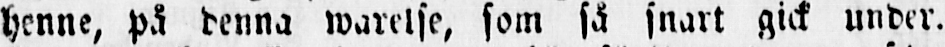henne, på denna warelse, som så snart gick under.
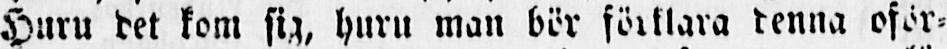Huru det kom sig, huru man bör förklara denna oför-
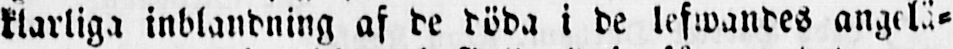klarliga inblandning af de döda i de lefwandes angelä-
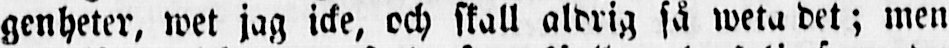genheter, wet jag icke, och skall aldrig få weta det; men
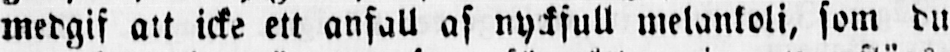medgif att icke ett anfall af nyckfull melankoli, som du
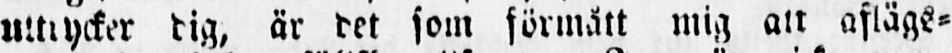uttrycker dig, är det som förmått mig att aflägs-
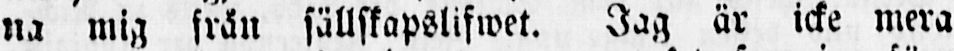na mig från sällskapslifwet. Jag är icke mera
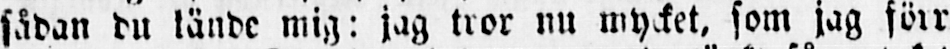sådan du kände mig: jag tror nu mycket, som jag förr
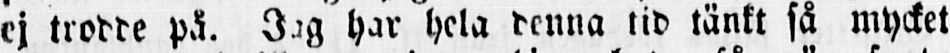ej trodde på. Jag har hela denna tid tänkt så mycket
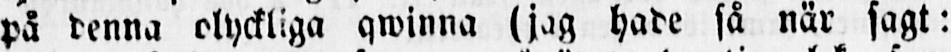på denna olyckliga qwinna (jag hade så när sagt:
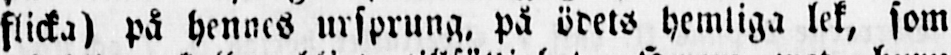flicka) på hennes ursprung, på ödets hemliga lek, som
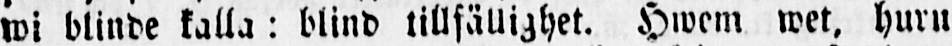wi blinde kalla: blind tillfällighet. Hwem wet, huru
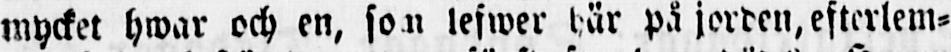mycket hwar och en, som lefwer här på jorden, efterlem-
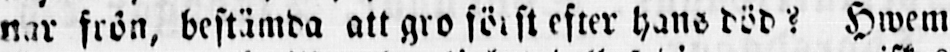nar frön, bestämda att gro först efter hans död? Hwem
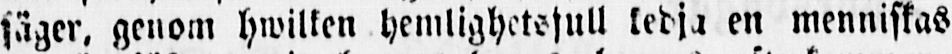säger, genom hwilken hemlighetsfull kedja en menniskas
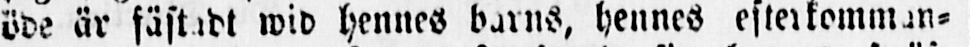öde är fästadt wid hennes barns, hennes efterkomman-
